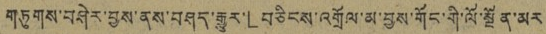གཏུགས་བཤེར་བྱས་ནས་བཤད་རྒྱུར་「བཅིངས་འགྲོལ་མ་བྱས་གོང་གི་ལོ་སྔོན་མར
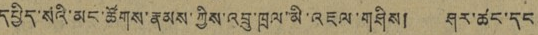དཔྱིད་སའི་མང་ཚོགས་རྣམས་ཀྱིས་འབྲུ་ཁྲལ་མི་འཇལ་གཤིས། ཤར་ཚང་དང
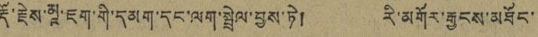རྡོ་རྗེས་མཱ་ཇག་གི་དམག་དང་ལག་སྦྲེལ་བྱས་ཏེ། རི་མགོར་རྒྱངས་མཐོང་
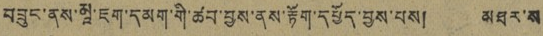བཟུང་ནས་མཱ་ཇག་དམག་གི་ཚབ་བྱས་ནས་རྟོག་དཔྱོད་བྱས་པས། མཐར་ས
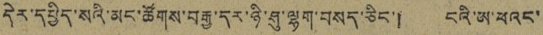དེར་དཔྱིད་སའི་མང་ཚོགས་བརྒྱ་དར་ཉི་ཤུ་ལྷག་བསད་ཅིང་། ངའི་ཨ་ཕའང་
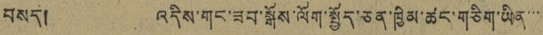བསད། འདིས་གང་ཟབ་སྒོས་ལོག་སྤྱོད་ཅན་ཁྱིམ་ཚང་གཅིག་ཡིན་་་
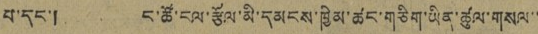པ་དང་། ང་ཚོ་ངལ་རྩོལ་མི་དམངས་ཁྱིམ་ཚང་གཅིག་ཡིན་ཚུལ་གསལ་་
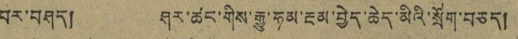བར་བཤད། ཤར་ཚང་གིས་རྒྱུ་ཧམ་རྔལ་བྱེད་ཆེད་མིའི་སྲོག་བཅད།
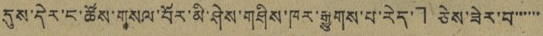དུས་དེར་ང་ཚོས་གསལ་བོར་མི་ཤེས་གཤིས་ཁར་རྒྱུགས་པ་རེད་」ཅེས་ཟེར་བ་་་་་་
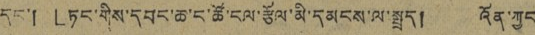དང་། 「ཏང་གིས་དབང་ཆ་ང་ཚོ་ངལ་རྩོལ་མི་དམངས་ལ་སྤྲད། འོན་ཀྱང
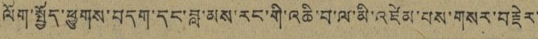ལོག་སྤྱོད་ཕྱུགས་བདག་དང་བླ་མས་རང་གི་འཆི་བ་ལ་མི་འཛེམ་པས་གསར་བརྗེར་
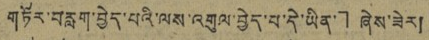གཏོར་བརླག་བྱེད་པའི་ལས་འགུལ་བྱེད་པ་དེ་ཡིན་」ཞེས་ཟེར།
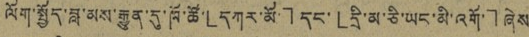ལོག་སྤྱོད་བླ་མས་རྒྱུན་དུ་ཁོ་ཚོ་「དཀར་མོ་」དང་「དི་མ་ཅི་ཡང་མི་འགོ་」ཞེས
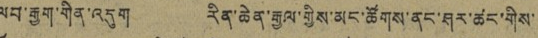ལབ་རྒྱག་གིན་འདུག རིན་ཆེན་རྒྱལ་གྱིས་མང་ཚོགས་ནང་ཤར་ཚང་གིས་
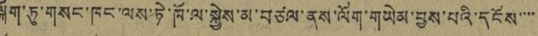ལྐོག་ཏུ་གསང་ཁང་ལས་ཏེ་ཁོ་ལ་སྐྱེས་མ་བཙལ་ནས་ལོག་གཡེམ་བྱས་པའི་དངོས་་་་
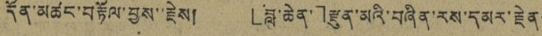དོན་མཚང་བརྟོལ་བྱས་་རྗེས། 「བླ་ཆེན་」རྫུན་མའི་བཞིན་རས་དམར་རྗེན་
